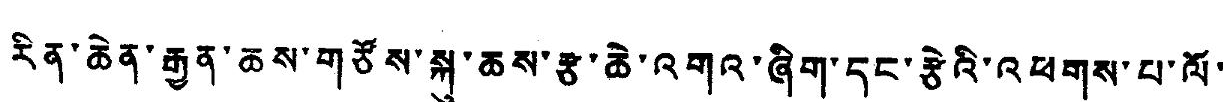རིན་ཆེན་རྒྱན་ཆས་གཙོས་སྐུ་ཆས་རྩ་ཆེ་འགའ་ཞིག་དང་རྩེའི་འཕགས་པ་ལོ་
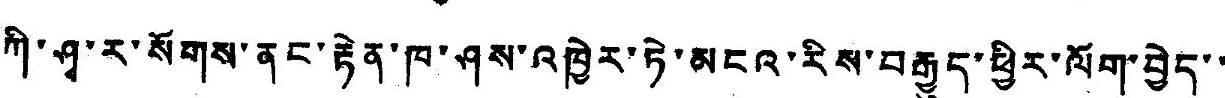ཀི་ཤྭ་ར་སོགས་ནང་རྟེན་ཁ་ཤས་འཁྱེར་ཏེ་མངའ་རིས་བརྒྱུད་ཕྱིར་ལོག་བྱེད་་
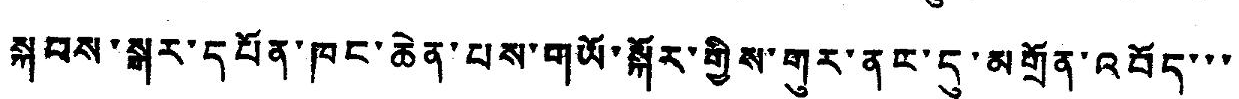སྐབས་སྒར་དཔོན་ཁང་ཆེན་པས་གཡོ་སྐོར་གྱིས་གུར་ནང་དུ་མགྲོན་འབོད་་་
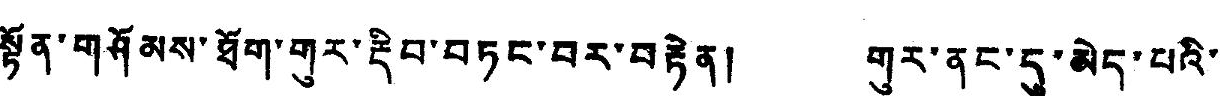སྟོན་གཤོམས་ཐོག་གུར་རྡིབ་བཏང་བར་བརྟེན། གུར་ནང་དུ་མེད་པའི་
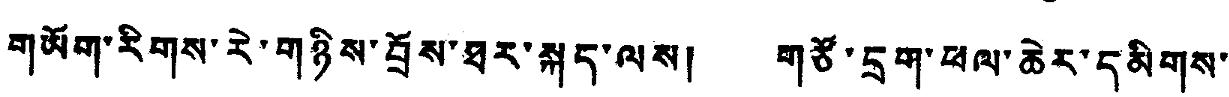གཡོག་རིགས་རེ་གཉིས་བྲོས་ཐར་སྐད་ལས། གཙོ་དྲག་ཕལ་ཆེར་དམིགས་
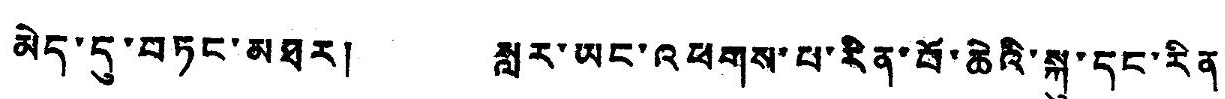མེད་དུ་བཏང་མཐར། སླར་ཡང་འཕགས་པ་རིན་པོ་ཆེའི་སྐུ་དང་རིན་
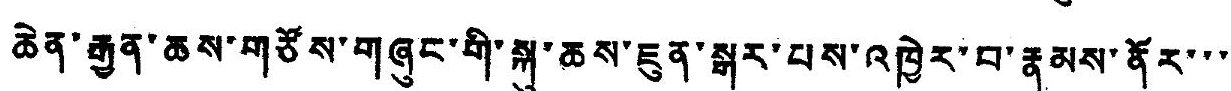ཆེན་རྒྱན་ཆས་གཙོས་གཞུང་གི་སྐུ་ཆས་ཇུན་སྒར་པར་འཁྱེར་བ་རྣམས་ནོར་་་
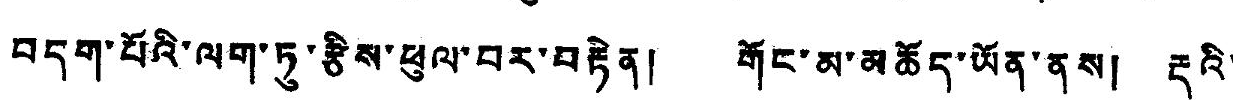བདག་པོའི་ལག་ཏུ་རྩིས་ཕུལ་བར་བརྟེན། གོང་མ་མཆོད་ཡོན་ནས། རྡའི་
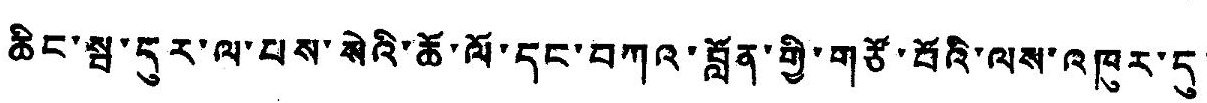ཆིང་སྦ་དུར་ལ་པས་སེའི་ཆོ་ལོ་དང་བཀའ་བློན་གྱི་གཙོ་བོའི་ལས་འཁུར་དུ་
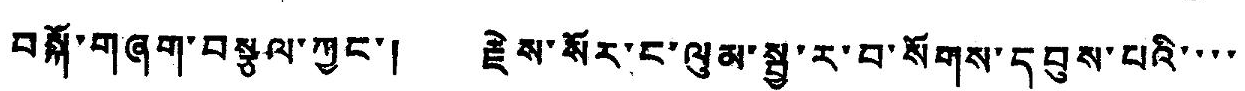བསྐོ་གཞག་བསྩལ་ཀྱང་། རྗེས་སོར་ང་ལུམ་སྦྱ་ར་བ་སོགས་དབུས་པའི་་་་
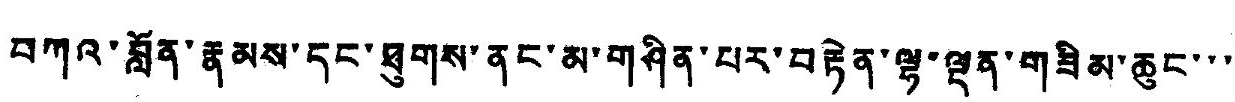བཀའ་བློན་རྣམས་དང་ཐུགས་ནང་མ་གཤིན་པར་བརྟེན་ལྷ་ལྡན་གཟིམ་ཆུང་་་
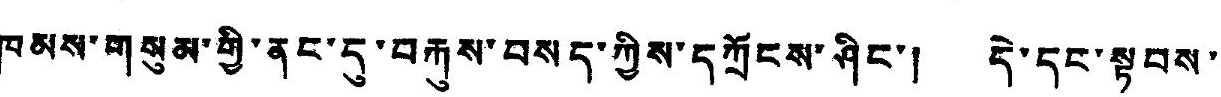ཁམས་གསུམ་གྱི་ནང་དུ་བརྐུས་བསད་ཀྱིས་དཀྲོངས་ཤིང་། དེ་དང་སྟབས་
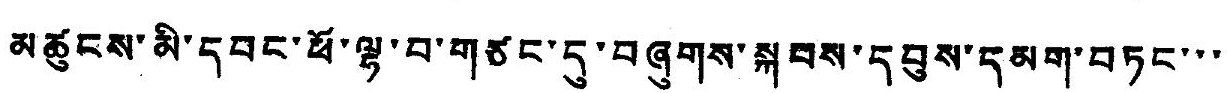མཚུངས་མི་དབང་ཕོ་ལྷ་བ་གཙང་དུ་བཞུགས་སྐབས་དབུས་དམག་བཏང་་་
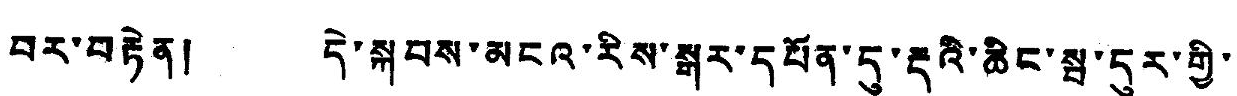བར་བརྟེན། དེ་སྐབས་མངའ་རིས་སྒར་དཔོན་དུ་རྡའི་ཆིང་སྦ་དུར་གྱི་
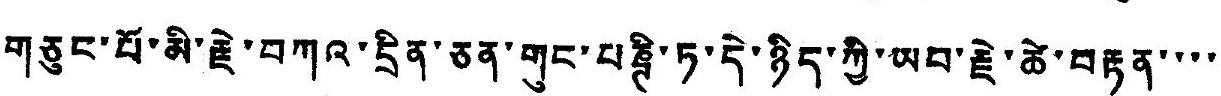གཅུང་པོ་མི་རྗེ་བཀའ་དྲིན་ཅན་གུང་པཎྚི་ཏ་དེ་ཉིད་ཀྱི་ཡབ་རྗེ་ཚེ་བརྟན་་་་
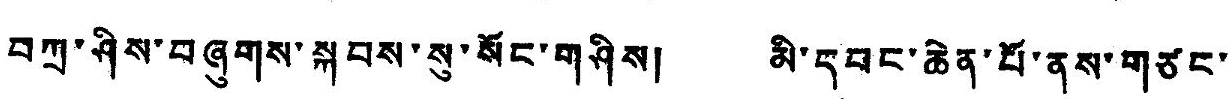བཀྲ་ཤིས་བཞུགས་སྐབས་སུ་སོངས་གཤིས། མི་དབང་ཆེན་པོ་ནས་གཙང་
